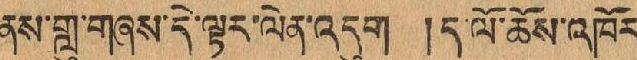ནས་གླུ་གཞས་དེ་ལྟར་ལེན་འདུག །ད་ལོ་ཆོས་འཁོར་
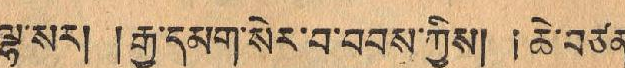ལྷ་སར། །རྒྱ་དམག་སེར་བ་བབས་ཀྱིས། །ཆེ་བཙན་
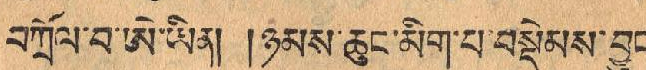བཀྲོལ་བ་ཨེ་ཡིན། །ཉམས་ཆུང་མིག་པ་བསྡེམས་བྱུང་།
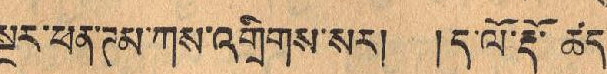སྔར་ཕན་ཊམ་ཀས་འགྲིགས་སར། །ད་ལོ་རྡོ་ ཚད་
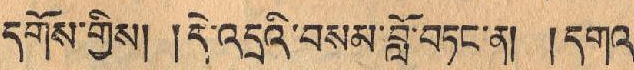དགོས་གྱིས། །དེ་འདྲའི་བསམ་བློ་བཏང་ན། །དགའ་
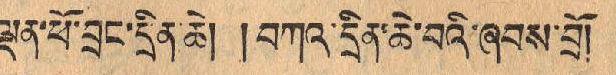ལྡན་ཕོ་བྲང་དྲིན་ཆེ། །བཀའ་དྲིན་ཆེ་བའི་ཞབས་བྲོ།
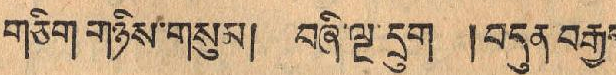གཅིག གཉིས་གསུམ། བཞི་ལྔ་དྲུག །བདུན་བརྒྱད་
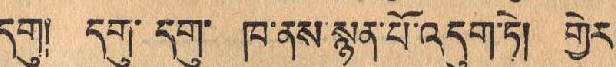དགུ། དགུ་དགུ་ ཁ་ནས་སྙན་པོ་འདུག་ཏེ། གྱེར་
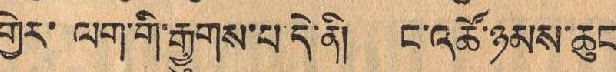གྱེར་ ལག་གི་རྒྱུགས་པ་དེ་ནི། ང་འཚོ་ཉམས་ཆུང་
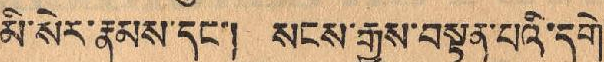མི་སེར་རྣམས་དང་། སངས་རྒྱས་བསྟན་པའི་དགེ་
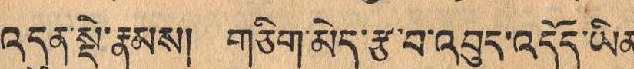འདུན་སྡེ་རྣམས། གཅིག་མེད་རྩ་བ་འབུད་འདོད་ཡིན་
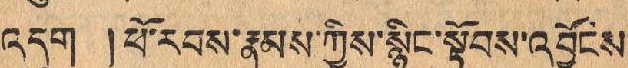འདུག །ཕོ་རབས་རྣམས་ཀྱིས་སྙིང་སྟོབས་འབྱོངས་
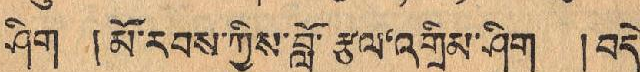ཤིག །མོ་རབས་ཀྱིས་བློ་རྩལ་འགྲིམ་ཤིག །བདེ་
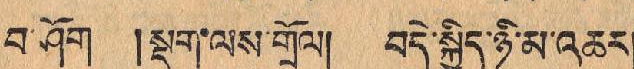བ་ཤོག །སྡུག་ལས་གྲོལ། བདེ་སྐྱིད་ཉི་མ་འཆར།
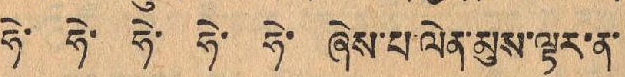ཧེ་ ཧེ་ ཧེ་ ཧེ་ ཧེ་ ཞེས་པ་ལེན་མུས་ལྟར་ན་
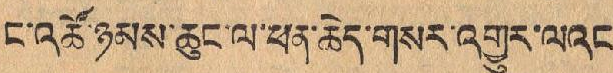ང་འཚོ་ཉམས་ཆུང་ལ་ཕན་ཆེད་གསར་འགྱུར་ལའང་
